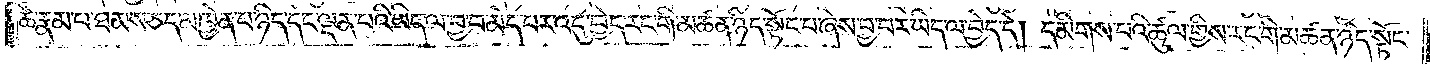ཚེ་རྣམ་པ་ཐམས་ཅད་མཁྱེན་པ་ཉིད་དང་ལྡན་པའི་ཡིད་ལ་བྱ་བ་མེད་པར་འདུ་བྱེད་རང་གི་མཚན་ཉིད་སྟོང་པ་ཞེས་བྱ་བར་ཡིད་ལ་བྱེད་དེ། དམིགས་པའི་ཚུལ་གྱིས་རང་གི་མཚན་ཉིད་སྟོང་
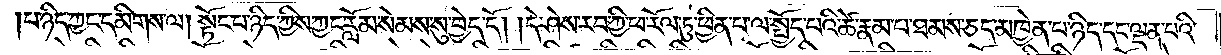པ་ཉིད་ཀྱང་དམིགས་ལ། སྟོང་པ་ཉིད་ཀྱིས་ཀྱང་རློམ་སེམས་སུ་བྱེད་དོ། །དེ་ཤེས་རབ་ཀྱི་ཕ་རོལ་ཏུ་ཕྱིན་པ་ལ་སྤྱོད་པའི་ཚེ་རྣམ་པ་ཐམས་ཅད་མཁྱེན་པ་ཉིད་དང་ལྡན་པའི་
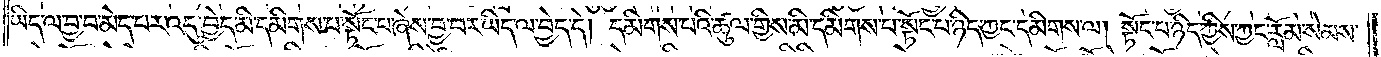ཡིད་ལ་བྱ་བ་མེད་པར་འདུ་བྱེད་མི་དམིགས་པ་སྟོང་པ་ཞེས་བྱ་བར་ཡིད་ལ་བྱེད་དེ། དམིགས་པའི་ཚུལ་གྱིས་མི་དམིགས་པ་སྟོང་པ་ཉིད་ཀྱང་དམིགས་ལ། སྟོང་པ་ཉིད་ཀྱིས་ཀྱང་རློམ་སེམས་
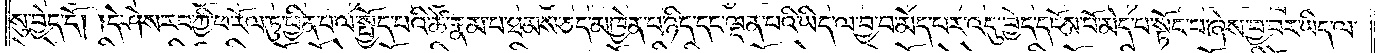སུ་བྱེད་དོ། །དེ་ཤེས་རབ་ཀྱི་ཕ་རོལ་ཏུ་ཕྱིན་པ་ལ་སྤྱོད་པའི་ཚེ་རྣམ་པ་ཐམས་ཅད་མཁྱེན་པ་ཉིད་དང་ལྡན་པའི་ཡིད་ལ་བྱ་བ་མེད་པར་འདུ་བྱེད་དངོས་པོ་མེད་པ་སྟོང་པ་ཞེས་བྱ་བར་ཡིད་ལ་
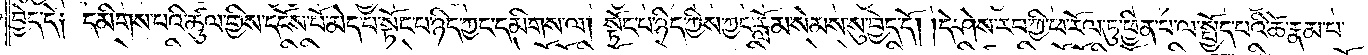བྱེད་དེ༑ དམིགས་པའི་ཚུལ་གྱིས་དངོས་པོ་མེད་པ་སྟོང་པ་ཉིད་ཀྱང་དམིགས་ལ། སྟོང་པ་ཉིད་ཀྱིས་ཀྱང་རློམ་སེམས་སུ་བྱེད་དོ། །དེ་ཤེས་རབ་ཀྱི་ཕ་རོལ་ཏུ་ཕྱིན་པ་ལ་སྤྱོད་པའི་ཚེ་རྣམ་པ་
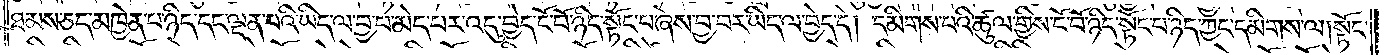ཐམས་ཅད་མཁྱེན་པ་ཉིད་དང་ལྡན་པའི་ཡིད་ལ་བྱ་བ་མེད་པར་འདུ་བྱེད་ངོ་བོ་ཉིད་སྟོང་པ་ཞེས་བྱ་བར་ཡིད་ལ་བྱེད་དེ། དམིགས་པའི་ཚུལ་གྱིས་ངོ་བོ་ཉིད་སྟོང་པ་ཉིད་ཀྱང་དམིགས་ལ། སྟོང་
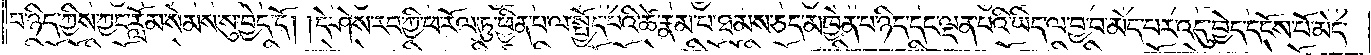པ་ཉིད་ཀྱིས་ཀྱང་རློམ་སེམས་སུ་བྱེད་དོ། །དེ་ཤེས་རབ་ཀྱི་ཕ་རོལ་ཏུ་ཕྱིན་པ་ལ་སྤྱོད་པའི་ཚེ་རྣམ་པ་ཐམས་ཅད་མཁྱེན་པ་ཉིད་དང་ལྡན་པའི་ཡིད་ལ་བྱ་བ་མེད་པར་འདུ་བྱེད་དངོས་པོ་མེད་
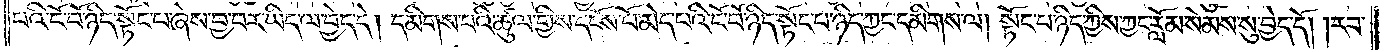པའི་ངོ་བོ་ཉིད་སྟོང་པ་ཞེས་བྱ་བར་ཡིད་ལ་བྱེད་དེ། དམིགས་པའི་ཚུལ་གྱིས་དངོས་པོ་མེད་པའི་ངོ་བོ་ཉིད་སྟོང་པ་ཉིད་ཀྱང་དམིགས་ལ། སྟོང་པ་ཉིད་ཀྱིས་ཀྱང་རློམ་སེམས་སུ་བྱེད་དོ། །རབ་
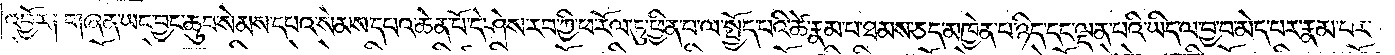འབྱོར༑ གཞན་ཡང་བྱང་ཆུབ་སེམས་དཔའ་སེམས་དཔའ་ཆེན་པོ་དེ་ཤེས་རབ་ཀྱི་ཕ་རོལ་ཏུ་ཕྱིན་པ་ལ་སྤྱོད་པའི་ཚེ་རྣམ་པ་ཐམས་ཅད་མཁྱེན་པ་ཉིད་དང་ལྡན་པའི་ཡིད་ལ་བྱ་བ་མེད་པར་རྣམ་པར་
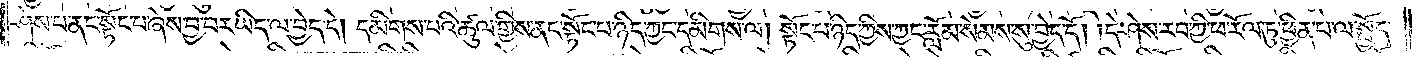ཤེས་པ་ནང་སྟོང་པ་ཞེས་བྱ་བར་ཡིད་ལ་བྱེད་དེ། དམིགས་པའི་ཚུལ་གྱིས་ནང་སྟོང་པ་ཉིད་ཀྱང་དམིགས་ལ། སྟོང་པ་ཉིད་ཀྱིས་ཀྱང་རློམ་སེམས་སུ་བྱེད་དོ། །དེ་ཤེས་རབ་ཀྱི་ཕ་རོལ་ཏུ་ཕྱིན་པ་ལ་སྤྱོད་
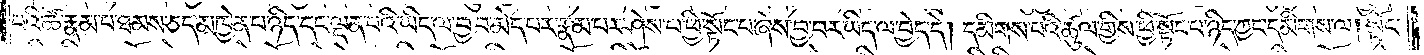པའི་ཚེ་རྣམ་པ་ཐམས་ཅད་མཁྱེན་པ་ཉིད་དང་ལྡན་པའི་ཡིད་ལ་བྱ་བ་མེད་པར་རྣམ་པར་ཤེས་པ་ཕྱི་སྟོང་པ་ཞེས་བྱ་བར་ཡིད་ལ་བྱེད་དེ། དམིགས་པའི་ཚུལ་གྱིས་ཕྱི་སྟོང་པ་ཉིད་ཀྱང་དམིགས་ལ། སྟོང་
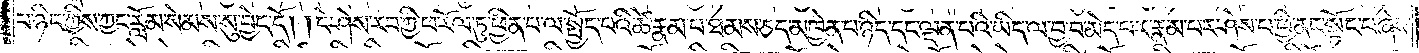པ་ཉིད་ཀྱིས་ཀྱང་རློམ་སེམས་སུ་བྱེད་དོ། །དེ་ཤེས་རབ་ཀྱི་ཕ་རོལ་ཏུ་ཕྱིན་པ་ལ་སྤྱོད་པའི་ཚེ་རྣམ་པ་ཐམས་ཅད་མཁྱེན་པ་ཉིད་དང་ལྡན་པའི་ཡིད་ལ་བྱ་བ་མེད་པར་རྣམ་པར་ཤེས་པ་ཕྱི་ནང་སྟོང་པ་ཞེས་
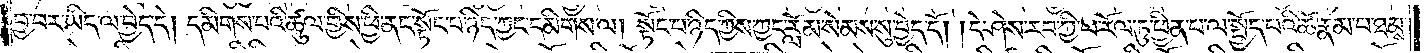བྱ་བར་ཡིད་ལ་བྱེད་དེ། དམིགས་པའི་ཚུལ་གྱིས་ཕྱི་ནང་སྟོང་པ་ཉིད་ཀྱང་དམིགས་ལ། སྟོང་པ་ཉིད་ཀྱིས་ཀྱང་རློམ་སེམས་སུ་བྱེད་དོ། །དེ་ཤེས་རབ་ཀྱི་ཕ་རོལ་ཏུ་ཕྱིན་པ་ལ་སྤྱོད་པའི་ཚེ་རྣམ་པ་ཐམས་
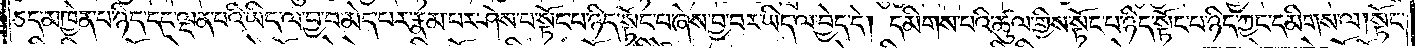ཅད་མཁྱེན་པ་ཉིད་དང་ལྡན་པའི་ཡིད་ལ་བྱ་བ་མེད་པར་རྣམ་པར་ཤེས་པ་སྟོང་པ་ཉིད་སྟོང་པ་ཞེས་བྱ་བར་ཡིད་ལ་བྱེད་དེ། དམིགས་པའི་ཚུལ་གྱིས་སྟོང་པ་ཉིད་སྟོང་པ་ཉིད་ཀྱང་དམིགས་ལ། སྟོང་
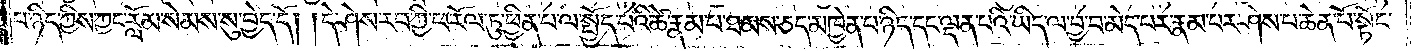པ་ཉིད་ཀྱིས་ཀྱང་རློམ་སེམས་སུ་བྱེད་དོ། །དེ་ཤེས་རབ་ཀྱི་ཕ་རོལ་ཏུ་ཕྱིན་པ་ལ་སྤྱོད་པའི་ཚེ་རྣམ་པ་ཐམས་ཅད་མཁྱེན་པ་ཉིད་དང་ལྡན་པའི་ཡིད་ལ་བྱ་བ་མེད་པར་རྣམ་པར་ཤེས་པ་ཆེན་པོ་སྟོང་
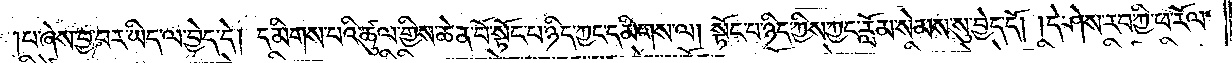པ་ཞེས་བྱ་བར་ཡིད་ལ་བྱེད་དེ། དམིགས་པའི་ཚུལ་གྱིས་ཆེན་པོ་སྟོང་པ་ཉིད་ཀྱང་དམིགས་ལ། སྟོང་པ་ཉིད་ཀྱིས་ཀྱང་རློམ་སེམས་སུ་བྱེད་དོ། །དེ་ཤེས་རབ་ཀྱི་ཕ་རོལ་
